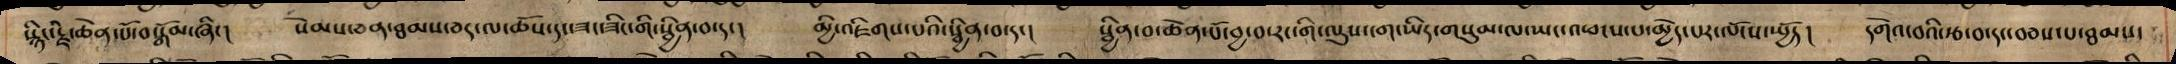སྙིང་རྗེ་ཆེན་པོ་བསྒོམ་ཞིང། སེམས་ཅན་ཐམས་ཅད་ལ་ཆོས་དང་ཟང་ཟིང་གི་སྦྱིན་བ་དང། མྱི་འཇིགས་པའི་སྦྱིན་བ་དང། སྦྱིན་བ་ཆེན་པོ་བྱ་བ་རང་གི་ལུས་ངག་ཡིད་གསུམ་ལ་ཡང་འཕངས་པ་མྱེད་པར་ལོངས་སྤྱོད། དགེའ་བའི་རྩ་བ་དང་བཅས་པ་ཐམས་
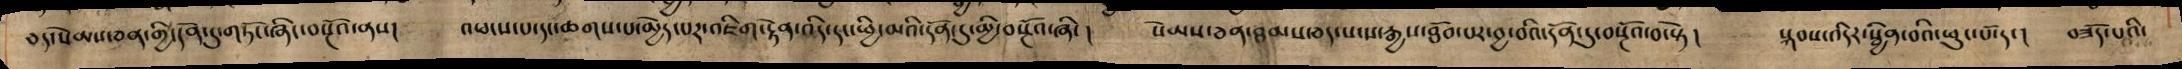ཅད་སེམས་ཅན་གྱི་དོན་དུ་གཏོང་ཞིང་བསྔོའ་ནས། འཕངས་པ་དང་ཆགས་པ་མྱེད་པར་འཇིག་རྟེན་འདི་དང་ཕྱི་མའི་དོན་དུ་མྱི་བསྔོའ་ཞིང ། སེམས་ཅན་ཐམས་ཅད་སངས་རྒྱས་ཐོབ་པར་བྱ་བའི་དོན་དུ་བསྔོའ་བ་སྟེ། སྐབས་འདིར་སྦྱིན་བའི་ཕུང་པོ་དང། བཟོད་པའི་
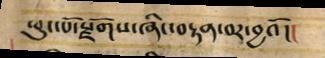ཕུང་པོ་སྫོགས་ཞིང་བརྟན་བར་བྱའོ།།
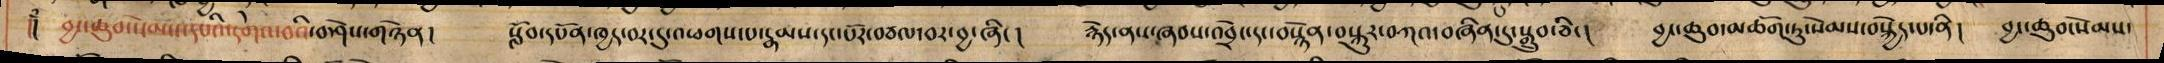།། བྱང་ཆུབ་སེམས་དཔའི་དགེའ་བའི་བཤེས་གཉེན། སློབ་དཔོན་ཁྱད་བར་དུ་འཕགས་པ་རྣམས་དང་པོར་བཙལ་བར་བྱ་ཞིང། རྙེད་ནས་ཞབས་འབྲེང་དང་བསྣེན་སྐུར་བཀའ་བཞིན་དུ་སྒྲུབ་ཅིང། བྱང་ཆུབ་མཆོག་ཏུ་སེམས་བསྐྱེད་པ་ནི། བྱང་ཆུབ་སེམས་
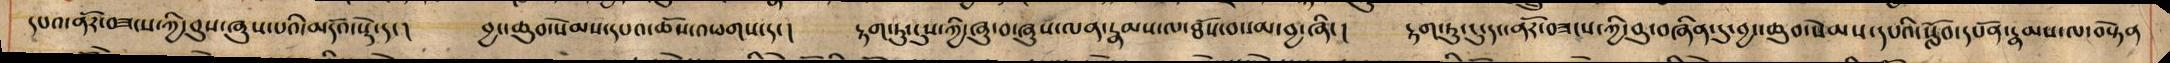དཔའ་ནོར་བཟངས་ཀྱི་བུས་ཞུས་པའི་མདོའ་སྡེ་དང། བྱང་ཆུབ་སེམས་དཔའ་ཆོས་འཕགས་དང། རྟག་ཏུ་དུས་ཀྱི་ཞུ་བ་ཞུས་ལན་རྣམས་ལ་ཐོས་བསམ་བྱ་ཞིང། རྟག་ཏུ་ངུ་དང་ནོར་བཟངས་ཀྱི་བུ་བཞིན་དུ་བྱང་ཆུབ་སེམས་དཔའི་སློབ་དཔོན་རྣམས་ལ་བསྟེན
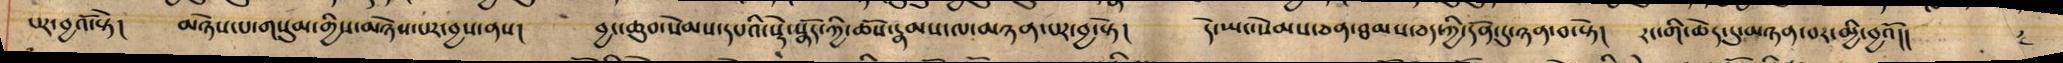པར་བྱའོ་སྟེ། མཉེས་པ་གསུམ་གྱིས་མཉེས་པར་བྱས་ནས། བྱང་ཆུབ་སེམས་དཔའི་སྡེ་སྣོད་ཀྱི་ཆོས་རྣམས་ལ་མཉན་པར་བྱ་སྟེ། དེ་ཡང་སེམས་ཅན་ཐམས་ཅད་ཀྱི་དོན་དུ་ཉན་བ་སྟེ། རང་གི་ཆེད་དུ་མཉན་བར་མྱི་བྱའོ།།
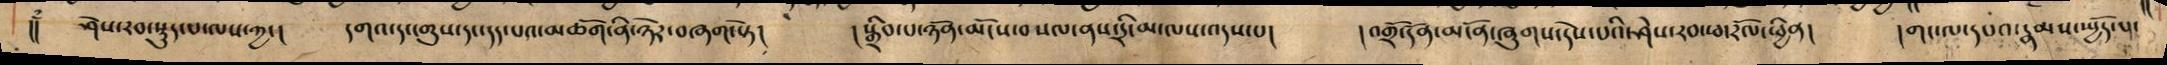།། ཤེས་རབ་སྡུད་པ་ལས་ཀྱང། དགའ་དང་གུས་དང་དད་པའ་མཆོག་ནི་ཉེར་བཞག་སྟེ། །སྒྲིབ་པ་ཉོན་མོངས་བསལ་ནས་དྲི་མ་ལས་འདས་པ། །འགྲོ་དོན་མངོན་ཞུགས་དེས་པའི་ཤེས་རབ་ཕ་རོལ་ཕྱིན། །གང་ལ་དཔའ་རྣམས་སྤྱོད་པ་
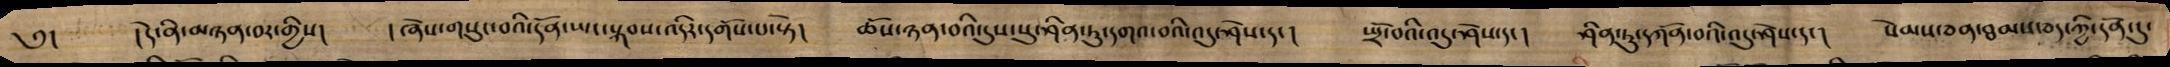༅། །དེ་ནི་མཉན་བར་གྱིས། །ཞེས་གསུང་བའི་དོན་ཡང་སྐབས་འདིར་དགོས་པ་སྟེ། ཆོས་ཉན་བའི་དུས་སུ་ཤིན་ཏུ་དགའ་བའི་འདུ་ཤེས་དང། སྤྲོ་བའི་འདུ་ཤེས་དང། ཤིན་ཏུ་དཀོན་བའི་འདུ་ཤེས་དང། སེམས་ཅན་ཐམས་ཅད་ཀྱི་དོན་དུ་
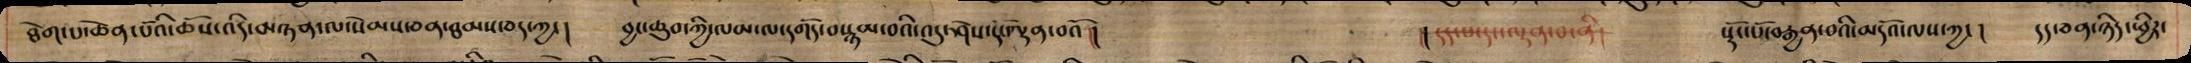ཐེག་པ་ཆེན་པོའི་ཆོས་འདི་མཉན་ལ་སེམས་ཅན་ཐམས་ཅད་ཀྱང། བྱང་ཆུབ་ཀྱི་ལམ་ལ་དགོད་བསྙམ་བའི་འདུ་ཤེས་དེ་ལྡན་བའོ།། །། དད་པ་དང་ལྡན་བ་ནི། སྡོང་པོ་བརྒྱན་བའི་མདོའ་ལས་ཀྱང། དད་ཅན་ཉིད་ཕྱིར་
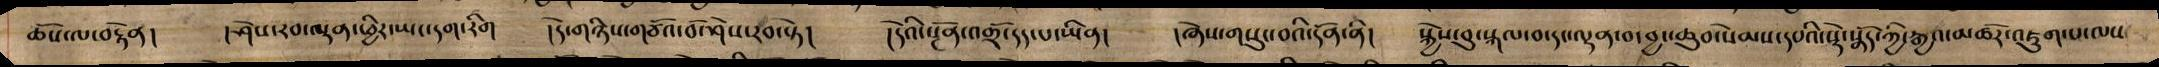ཆོས་ལ་བརྟེན། །ཤེས་རབ་ལྡན་ཕྱིར་ཡང་དག་རིག །དེ་གཉིས་གཙོའ་བོ་ཤེས་རབ་སྟེ། །དེའི་སྔོན་འགྲོ་དད་པ་ཡིན། །ཞེས་གསུང་བའི་དོན་ནི། སྐྱེས་བུ་སྐལ་བ་དང་ལྡན་བ་བྱང་ཆུབ་སེམས་དཔའི་སྡེ་སྣོད་ཀྱི་རྒྱའ་མཚོར་འཇུག་པ་ལས
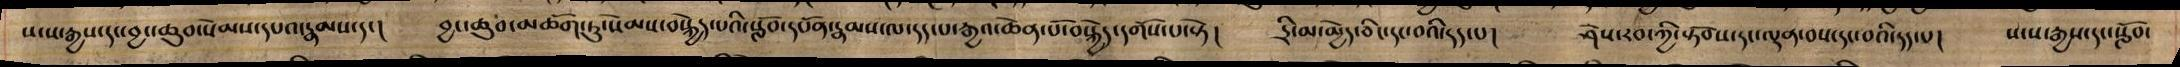སངས་རྒྱས་དང་བྱང་ཆུབ་སེམས་དཔའ་རྣམས་དང། བྱང་ཆུབ་མཆོག་ཏུ་སེམས་བསྐྱེད་པའི་སློབ་དཔོན་རྣམས་ལ་དད་པ་རྒྱའ་ཆེན་པོ་བསྐྱེད་དགོས་པ་སྟེ། དྲི་མ་མྱེད་ཅིང་དང་བའི་དད་པ། ཤེས་རབ་ཀྱི་སྟོབས་དང་ལྡན་བས་དང་བའི་དད་པ། ཤེས་རབ་ཀྱི་སྟོབས་དང་ལྡན་བས་དང་བའི་དད་པ། སངས་རྒྱས་དང་སློབ་
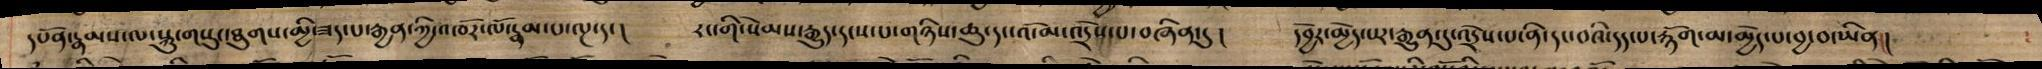དཔོན་རྣམས་ལ་སྐུ་གསུང་ཐུགས་མྱི་ཟད་པ་རྒྱན་ཀྱི་འཁོར་ལོ་རྣམ་པ་ལྔ་དང། རང་གི་སེམས་རྒྱུད་དངས་པ་གཉིས་ཆུ་དང་འོ་མ་འདྲེས་པ་བཞིན་དུ། དབྱེར་མེད་པར་རྒྱུན་དུ་འདྲེས་པ་ནི་དང་བའི་དད་རྙོག་མ་མྱེད་པ་བྱ་བ་ཡིན།།
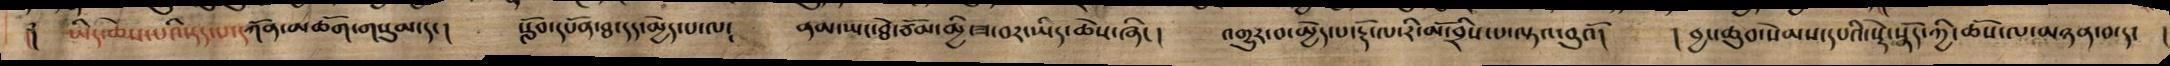།། ཡིད་ཆེས་པའི་དད་པ་དཀོན་མཆོག་གསུམ་དང། སློབ་དཔོན་ཐ་དད་མྱེད་པ་ལ་ ནམ་ཡང་ཐེ་ཙོམ་མྱི་ཟ་བར་ཡིད་ཆེས་ཞིང། འགྱུར་བ་མྱེད་པ་རྡོ་ལ་རི་མོ་བྲིས་པ་ལྟའ་བུའོ།  །བྱང་ཆུབ་སེམས་སེམས་དཔའི་སྡེ་སྣོད་ཀྱི་ཆོས་ལ་མཉན་བ་དང །
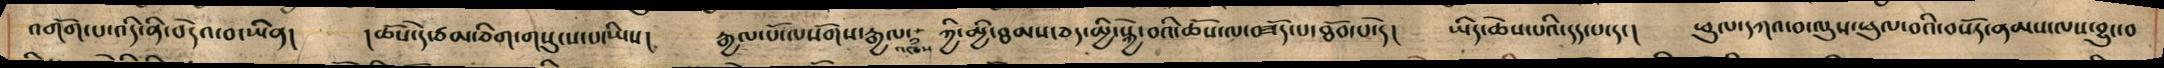འགོག་པ་འདི་ནི་བདེའ་བ་ཡིན། །ཆོས་དེ་ཙམ་ཅིག་གསུངས་པ་ཡིས། རྒྱལ་པོ་ལསོགས་རྒྱལ་ ཀྱི་མྱི་ཐམས་ཅད་མྱི་སྐྱེ་བའི་ཆོས་ལ་བཟོད་པ་ཐོབ་པ་དེ། ཡིད་ཆེས་པའི་དད་པ་དང། ཕུལ་དཀའ་བ་ལུས་ཕུལ་བའི་བསོད་ནམས་ལས་བྱུང་བ
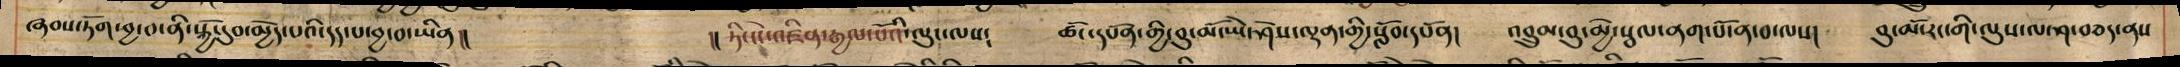ཞབས་ཏོག་བྱ་བ་ནི་སྐྱོ་དུབ་མྱེད་པའི་དད་པ་བྱ་བ་ཡིན།། །།ཏིང་ངེ་འཛིན་རྒྱལ་པོའི་ལུས་ལས: ཚོང་དཔོན་གྱི་བུ་མོ་ཡེ་ཤེས་ལྡན་གྱི་སློབ་དཔོན། འབྲུམ་བུ་མྱེ་སྦལ་ནག་པོ་ན་བ་ལས། བུ་མོ་རང་གི་ལུས་ལ་ཤ་བཅད་ནས
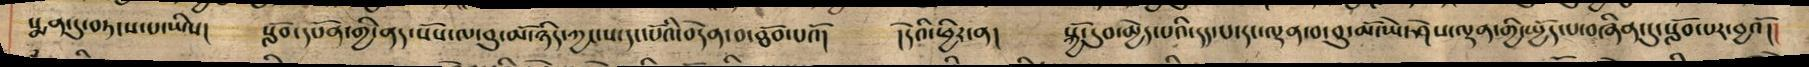སྨན་དུ་བཏངས་པ་ཡིས། སློབ་དཔོན་གྱི་ནད་སོས་ལ་བུ་མོ་ཉིད་ཀྱང་ས་དང་པོའི་བདེན་བ་ཐོབ་པའོ། །དེའི་ཕྱིར་ན། སྐྱོ་དུབ་མྱེད་པའི་དད་པ་དང་ལྡན་བ་བུ་མོ་ཡེ་ཤེས་ལྡན་གྱི་སྤྱོད་པ་བཞིན་དུ་སློབ་པར་བྱའོ།།
